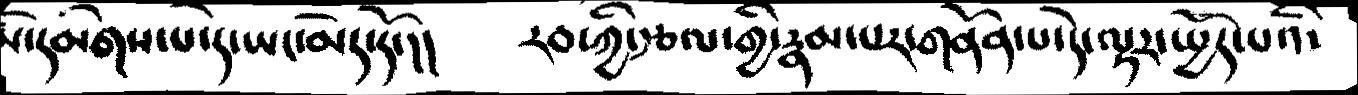དམིགས་པ་དེ་ཡང་མེད་དོ་།།  རབ་ཀྱི་རྩལ་གྱི་རྣམ་པར་གནོན་པ་དེ་ལྟར་སྤྱོད་པའི་
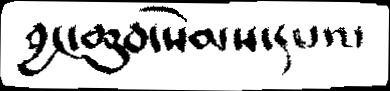བྱང་ཆུབ་སེམས་དཔའ་
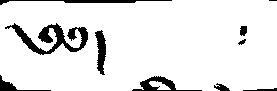༄༅།            ༴
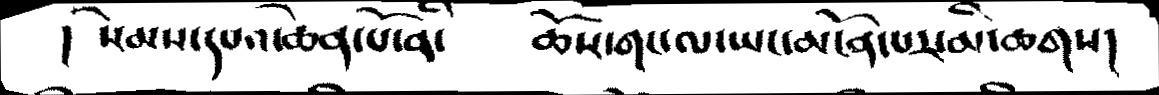།  སེམས་དཔའ་ཆེན་པོ་ནི་    ཆོས་གང་ལ་ཡང་མངོན་པར་མི་ཆགས།
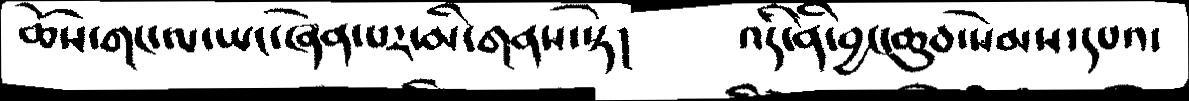ཆོས་གང་ལ་ཡང་ཞེན་པར་མི་གམས་སྟེ།  འདི་ནི་བྱང་ཆུབ་སེམས་དཔའ་
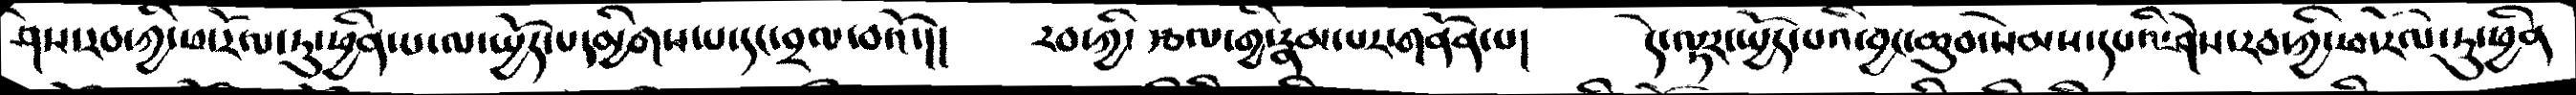ཤེས་རབ་ཀྱི་ཕ་རོལ་ཏུ་ཕྱིན་པ་ལ་སྤྱོད་པ་དམིགས་པ་དང་བྲལ་བའོ་།།  རབ་ཀྱི་རྩལ་གྱི་རྣམ་པར་གནོན་པ། དེ་ལྟར་སྤྱོད་པའི་བྱང་ཆུབ་སེམས་སཔའི་ཤེས་རབ་གྱི་ཕ་རོལ་ཏུ་ཕྱིན
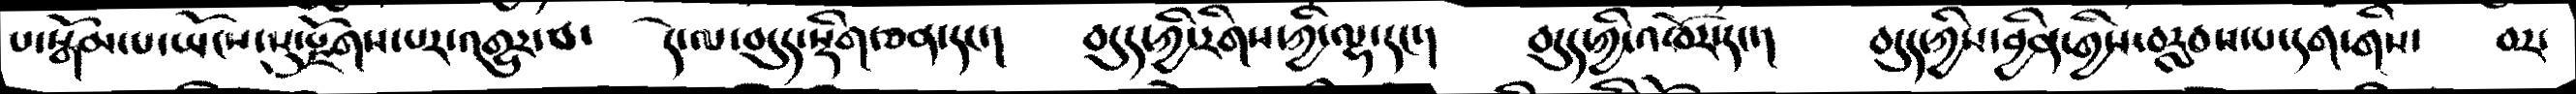པ་རྒོམ་པ་ཡོངས་སུ་རྫོགས་པཔར་འགྱུར་བ་  དེ་ལ་བདུད་སྡིག་ཅན་དང་།  བདུད་ཀྱི་རིགས་ཀྱི་ལྷ་དང་།  བདུད་ཀྱི་འཁོར་དང་།  བདུད་ཀྱིས་བྱིན་གྱིས་བརླབ་པ་དག་གིས་  བར་
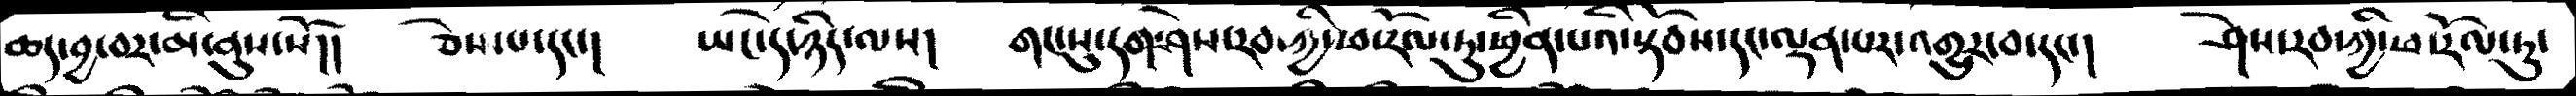ཆད་བྱ་བར་མི་ནུས་སོ།།  ཅེས་པ་དང་།  ཡང་དེ་ཉིད་ལས།  གང་སུ་དག་ཤེས་རབ་ཀྱི་ཕ་རོལ་ཏུ་ཕྱིན་པའི་སྟོབས་དང་ལྡན་པར་འགྱུར་བ་དང་།  ཤེས་རབ་ཀྱི་ཕ་རོལ་ཏུ་
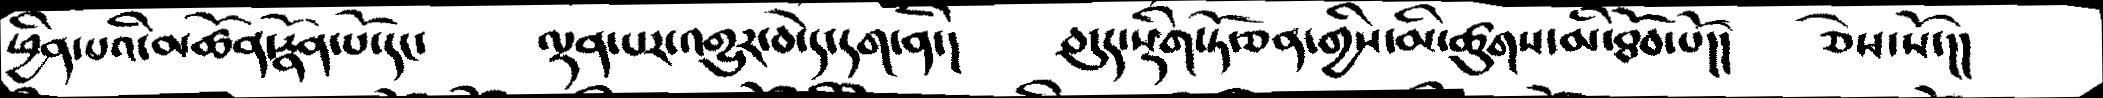ཕྱིན་པའི་མཚོན་རྣོན་པོ་དང་   ལྡན་པར་འགྱུར་བ་དེ་དག་ནི་།  བདུད་སྡིག་ཏོ་ཅན་གྱིས་མི་ཚུགས་ནི་ཐོབ་པོ།།  ཅེས་སོ་།།
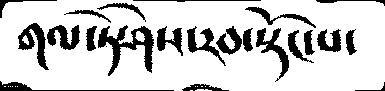གལ་ཏེ་ཤེས་རབ་སྟོང་པ་
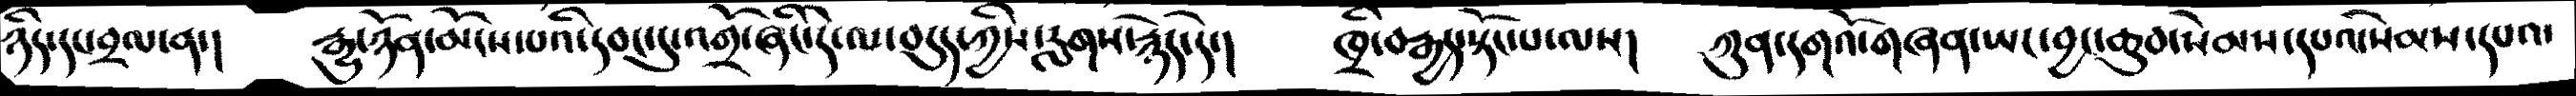ཉིད་དང་བྲལ་ན་།   རྒྱུ་ཉོན་མོངས་པའི་དབང་དུ་འགྲོ་ཞིང་དེ་ལ་བདུད་ཀྱིས་རླགས་རྙེད་དེ་།   ཁྲི་བརྒྱད་སྟོང་པ་ལས།  ཀུན་དགའོ་གཞན་ཡང་བྱང་ཆུབ་སེམས་དཔའ་སེམས་དཔའ་
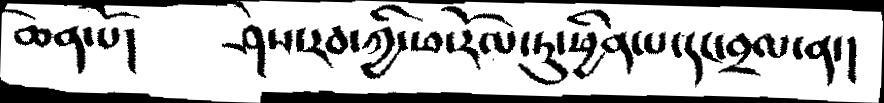ཆེན་པོ།  ཤེས་རབ་ཀྱི་ཕ་རོལ་ཏུ་ཕྱིན་པ་དང་བྲལ་ན་།
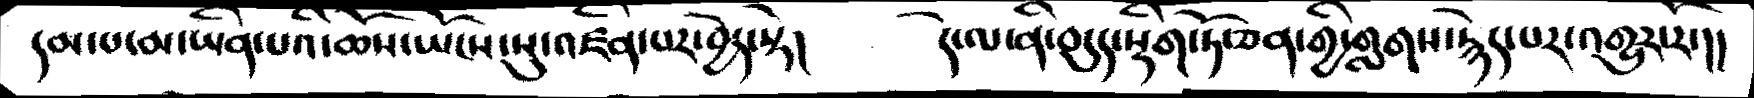དམ་པ་མ་ཡིན་པའི་ཆོས་ཡོངས་སུ་འཛིན་པར་བྱེད་སྟེ།   དེ་ལ་ནི་བདུད་སྡིག་ཏོ་ཅན་གྱི་གླགས་རྙེད་པར་འགྱུར་རོ་།།
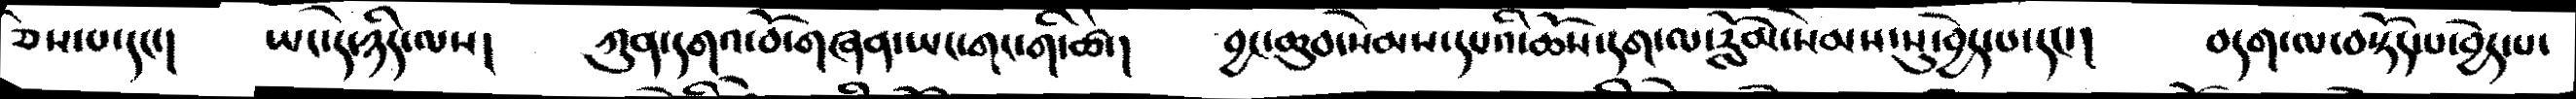ཅེས་པ་དང་།  ཡང་དེ་ཉིད་ལས།  ཀུན་དགའ་བོ་གཞན་ཡང་གང་གི་ཚེ་།  བྱང་ཆུབ་སེམས་དཔའི་ཆོས་དག་ལ་རློམས་སེམས་སུ་བྱེད་པ་དང་།  བདག་ལ་བསྟོད་པ་བྱེད་པ་
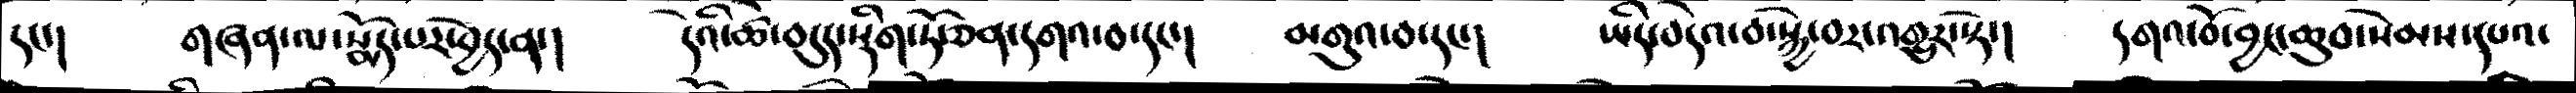དང་།  གཞན་ལ་སྨོད་པར་ཕྱེད་ན་།  དེའི་ཚེ་བདུད་སྡིག་ཏོ་ཅན་དགའ་བ་དང་།  མགུའ་བ་དང་།  ཡིད་བདེའ་བ་སྐྱེ་བར་འགྱུར་སྟེ་།  དགའ་བོ་བྱང་ཆུབ་སེམས་དཔའ་
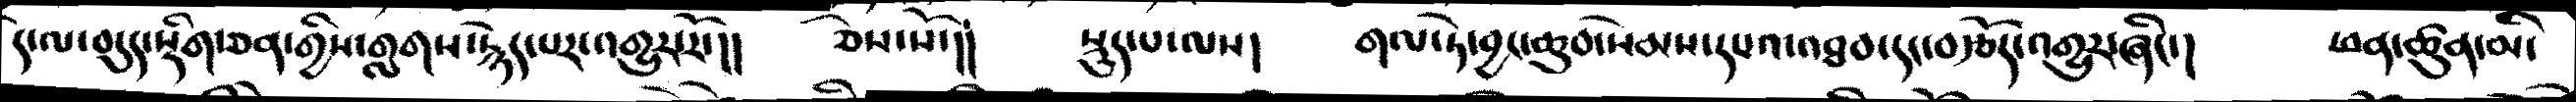དེ་ལ་བདུད་སྡིག་ཅན་གྱིས་གླགས་རྙེད་པར་འགྱུར་རོ་།།  ཅེས་སོ་།།  སྡུད་པ་ལས།  གལ་ཏེ་བྱང་ཆུབ་སེམས་དཔའ་འཐབ་དང་བརྩོད་འགྱུར་ཞིང་།  ཕན་ཚུབ་མི་
